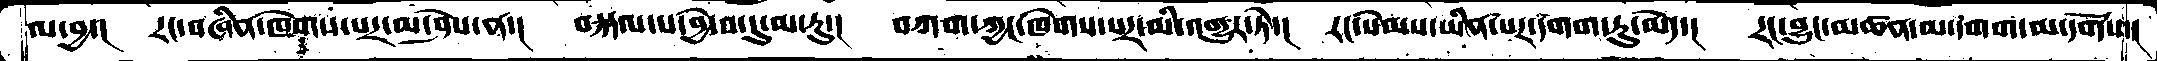ལ་བྱ་།   རང་བཞིན་ཁེགས་པར་མ་ཤེས་ན་།   བསྐལ་པ་བྱེ་བ་དུ་མ་རུ་།   བཀག་ཀྱང་ཁེགས་པར་མི་འགྱུར་ཏེ་།   རང་སེམས་ཡིན་པར་དགག་ཏུ་མེད་།   རང་བྱུང་མཚན་མ་དགག་མ་དགོས་།
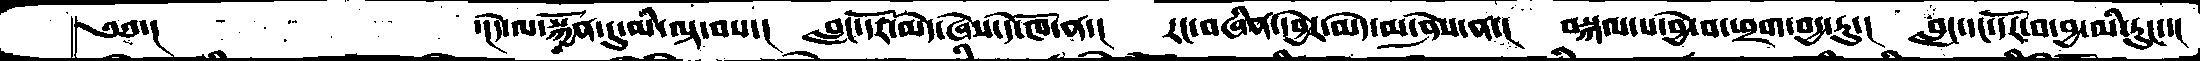༄༅་།      ་།དེ་ལ་སྐྱོན་དུ་མི་ལྟ་བས་།  བླང་དོར་མེད་ཞེས་དེ་ཁོ་ན་།  རང་བཞིན་དབྱེར་མེད་མ་ཤེས་ན་།  བསྐལ་པ་བྱེ་བ་ཕྲག་བདྱ་རུ་།  བླང་དང་དོར་བ་བྱ་མི་རུང་་།
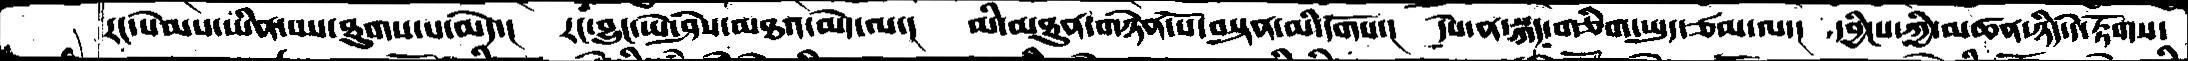རང་སེམས་ཡིན་པས་ཐུགས་པ་མེད་།  རང་བྱུང་ཡེ་ཤེས་མཐའ་མེད་ལ་།  མི་མཐུན་གཉེན་པོ་བསྟན་མི་དགོས་།  དེས་ན་སྐད་གཅིག་ཡུད་ཙམ་ལ་།  དབྱིངས་ཀྱི་མཚན་ཉིད་དེ་རྟོགས་
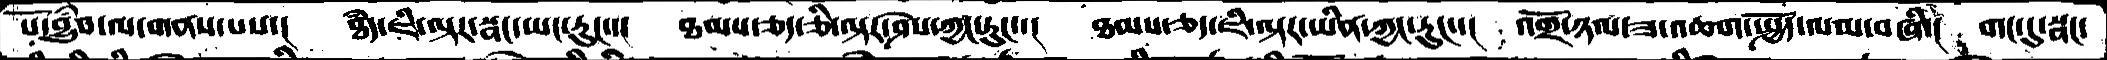པོ་བྱུཾབ་ལ་གནས་པས་།  ཐཾད་ཇི་ལྟར་སྣང་ཡང་རུང་་།  ཐམས་ཅད་ཅི་ལྟར་ཤེས་ཀྱང་རུང་་།  ཐམས་ཅད་ཇི་ལྟར་ཡིན་ཀྱང་རུང་་།  འགྲོ་ཉལ་ཟ་འཆག་སྤྱོད་ལམ་བཞི་།  གང་དུ་སྣང་
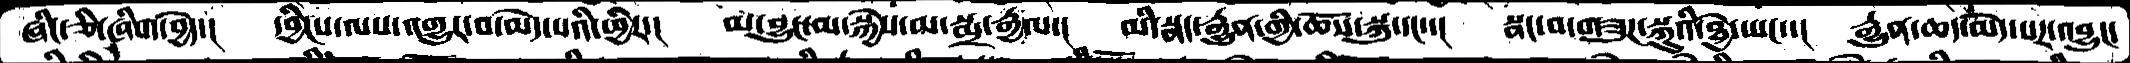ཞིང་ཅི་ཞིག་བྱེད་།  དབྱིངས་ལས་འགྱུར་བ་མེད་པའི་ཕྱིར་།  མ་བྱུང་མ་སྐྱེས་མ་སྨྲ་རྒྱལ་།  མི་སྣང་རྒྱུན་གྱི་ཆོས་སྐུ་དང་་།  སྣང་བ་གཟུཌ་སྐུའི་ཐྱེ་ཡང་་།  རྒྱུན་ཆད་མེད་པར་འབྱུང་
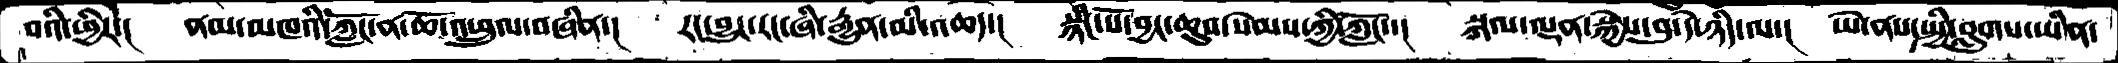བའི་ཕྱིར་།  ནམ་མཁའི་ཀློང་ན་ཆོ་འཕྲུལ་བཞིན་།  རང་བྱུང་རང་ཞི་རྒྱུན་མི་ཆད་།  སྙིང་པོ་བྱང་ཆུབ་སེམས་ཀྱི་ཀློང་་།  སྐལ་ལྡན་སྐྱེས་བུ་དེ་ཉིད་ལ་།  ཡེ་ནས་སྤྱི་བླུགས་ཡིན་
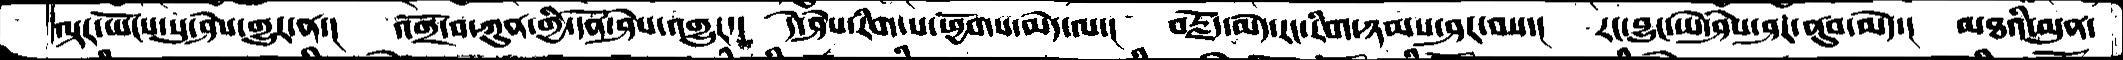ལྟར་ཡོངས་སུ་ཤེས་གྱུར་ན་།  འགྲོ་བ་ཀུན་གྱི་དོན་ཤེས་འགྱུར་།  དེ་ཤེས་རིག་པ་ཕྱོགས་མེད་ལ་།  བརྗོད་མེད་རང་རིག་ཉམས་ཤར་བས་།  རང་བྱུང་ཡེ་ཤེས་ཤར་ནུབ་མེད་།  མཐའི་མུན་
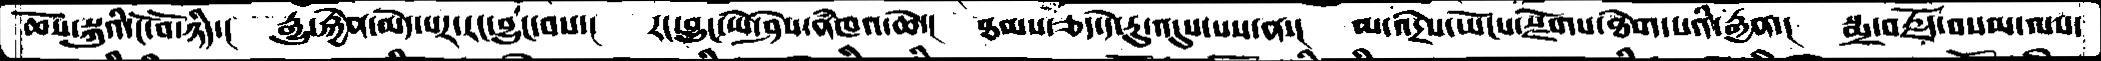ཆོས་སྐུའི་ངོ་བོ་ཉིད་།   རྒྱུ་རྐྱེན་མེད་པར་རང་བྱུང་བས་།   རང་བྱུང་ཡེ་ཤེས་ནཾཁའ་ཆེ་།   ཐམས་ཅད་དེ་རུ་འདུས་པས་ན་།   མ་འདྲེས་ཡོངས་སྫོགས་ཐེག་པའི་རྒྱན་།   སྨྲ་བརྗོད་བསམ་ལས་
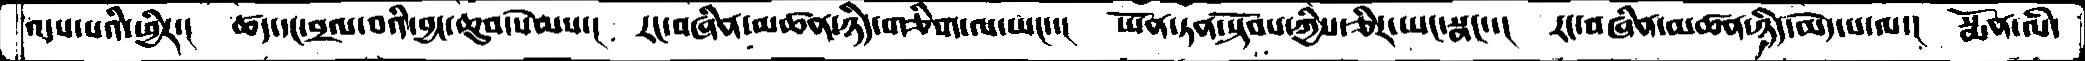འདས་པའི་ཕྱིར་།  ཚད་དང་བྲལ་བའི་བྱང་ཆུབ་སེམས་།  རང་བཞིན་མཚན་ཉིད་གཅིག་ལ་ཡང་་།   ཡོན་ཏན་སྟོབས་ཀྱིས་ཅིར་ཡང་སྣང་་།  རང་བཞིན་མཚན་ཉིད་མེད་པ་ལ་།  སྨོན་ལཾ་
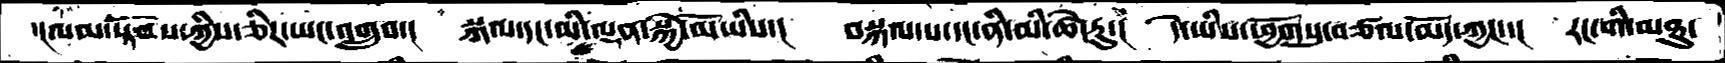་།ལམ་སྟོབས་ཀྱིས་ཅིར་ཡང་འགྲུབ་།  སྐལ་དང་མི་ལྡན་སྐྱེ་མོ་ཡི་།  བསྐལ་པ་དང་ནི་མི་ཚེ་རུ་།  དེ་ཡིས་ཕྱོགསུ་བཙལ་མོད་ཀྱང་་།  རང་གི་མཐུ་
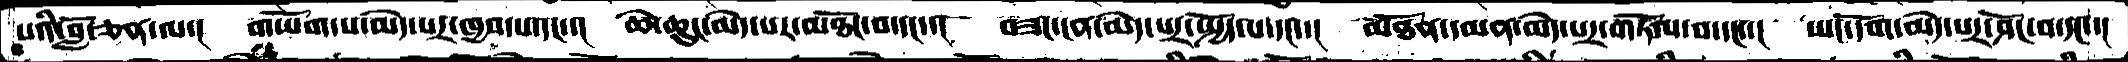པའི་བློ་ཅན་ལ་།   གཡོག་ས་མེད་པར་ཁྱབ་པ་དང་་།   ཆེ་ཆུང་མེད་པར་མཐོང་བ་དང་་།   བཟང་ངན་མེད་པར་སྤྱོད་པ་དང་་།   མཐོན་དམན་མེད་པར་གཏོལ་བ་དང་་།   ཡང་དོག་མེད་པར་ཤོང་བ་དང་་།
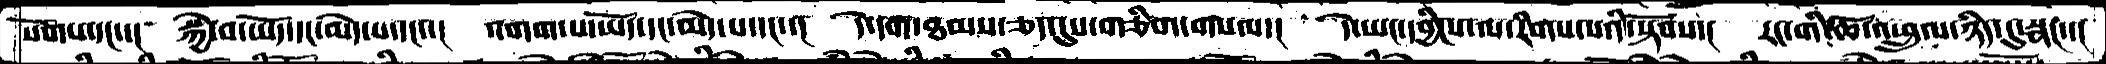སོགས་དང་་།  སྐྱེ་བ་ཡོད་དང་མེད་པ་དང་་།  འགག་པ་ཡོད་དང་མེད་པ་དང་་།  དེ་དག་ཐམས་ཅད་དུས་གཅིག་གསལ་།  དེ་ཡང་དབྱིངས་ལ་རིགས་པའི་སྟོབས་།  རང་གི་ཆོ་འཕྲུལ་ཉིད་དུ་སྣང་་།
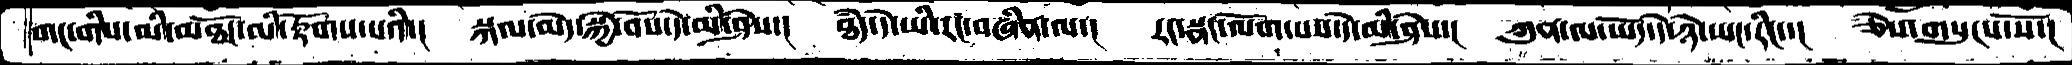གང་གིས་མི་མཐོང་མི་རྟོགས་པའི་།  སྐལ་མེད་སྐྱེ་བོས་དེ་མི་ཤེས་།  ཐཾད་དེ་ཡི་རང་བཞིན་ལ་།  རང་སྣང་ལོག་པས་དེ་མི་ཤེས་།  ཀུན་ལ་ཡོད་དེ་ཉེ་ཡང་རིང་་།  ཅེས་གསུངས་སོ་།
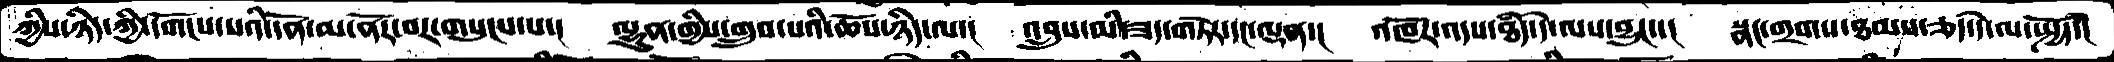ཀྱིས་ཉིད་ཀྱི་དགོངས་པའི་དོན་མ་ནོར་བར་གསུངས་པ་།  ལྷུན་གྱིས་གྲུབ་པའི་ཆོས་ཉིད་ལ་།  འབྲུས་མི་ཟད་གཏེར་དང་ལྡན་།  འཁོར་འདས་ཐཾད་དེ་ལས་བྱུང་་།  སྣང་གྲགས་ཐམས་ཅད་དེ་ལ་སྤྱོད་།
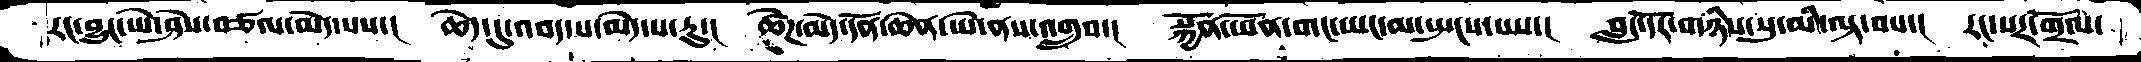རང་བྱུང་ཡེ་ཤེས་བཙལ་མེད་པས་།  ཆེད་དུ་འབད་པ་མེད་པ་རུ་།  ཚེཌ་མེད་དོན་ཆེན་ཡེ་ནས་འགྲུབ་།  སྐྱོན་ཡོན་གང་ཡང་མ་སྤངས་པས་།  བླང་དོར་གཉིས་སུ་མི་ལྟ་བས་།  རང་སར་གྲོལ་
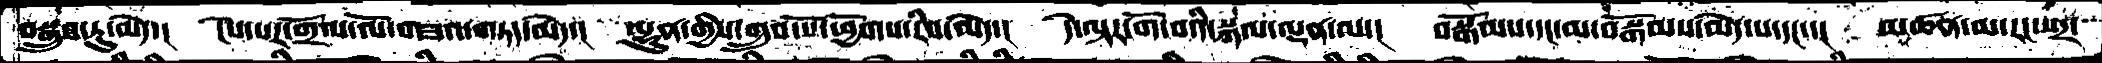བསྒྲུབ་ཏུ་མེད་།  ངེས་པར་གྲོལ་ལོ་གཟའ་གཏད་མེད་།  ལྷུན་གྱིས་གྲུབ་པོ་ཕྱོགས་རིས་མེད་།  དེ་ལྟར་གོ་བའི་སྐལ་ལྡན་ལ་།  བསྒོམས་དང་མ་བསྒོམས་མེད་པ་དང་་།  མཚན་མ་རང་སར་
